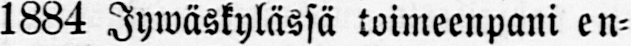1884 Jywäskylässä toimeenpani en-
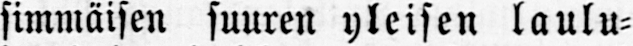simmäisen suuren yleisen laulu-
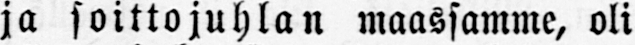ja soittojuhlan maassamme, oli
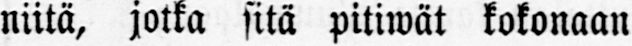niitä, jotka sitä pitiwät kokonaan
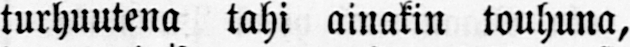turhuutena tahi ainakin touhuna,
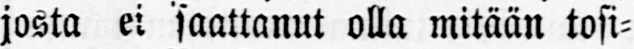josta ei saattanut olla mitään tosi-
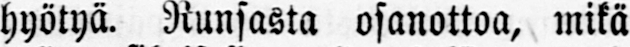hyötyä. Runsasta osanottoa, mikä
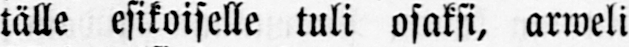tälle esikoiselle tuli osaksi, arweli
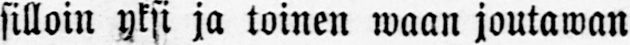silloin yksi ja toinen waan joutawan
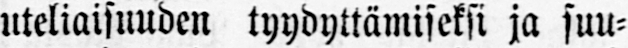uteliaisuuden tyydyttämiseksi ja suu-
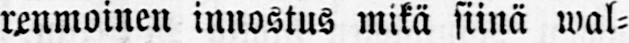renmoinen innostus mikä siinä wal-
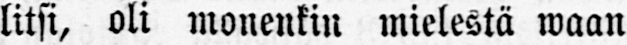litsi, oli monenkin mielestä waan
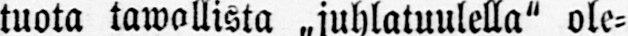tuota tawallista „juhlatuulella" ole-
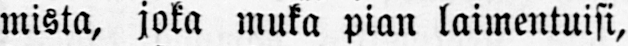mista, joka muka pian laimentuisi,
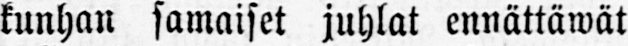kunhan samaiset juhlat ennättäwät
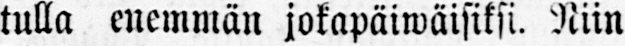tulla enemmän jokapäiwäisiksi. Niin
